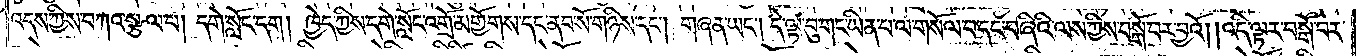འདས་ཀྱིས་བཀའ་སྩལ་པ། དགེ་སློང་དག། ཁྱེད་ཀྱིས་དགེ་སློང་འགྲོ་མགྱོགས་དང་ནབ་སོ་གཉིས་དང༌། གཞན་ཡང༌། དེ་ལྟ་བུ་གང་ཡིན་པ་ལ་གསོལ་བ་དང་བཞིའི་ལས་ཀྱིས་བསྒོ་བར་བྱའོ། །འདི་ལྟར་བསྒོ་བར་
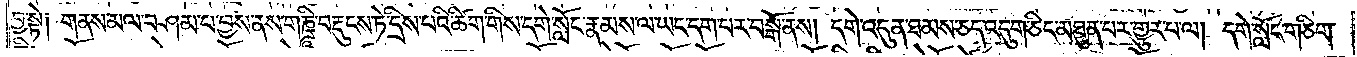བྱ་སྟེ། གནས་མལ་བཤམ་པ་བྱས་ནས་གཎྜཱི་བརྡུངས་ཏེ་དྲིས་པའི་ཚིག་གིས་དགེ་སློང་རྣམས་ལ་ཡང་དག་པར་བསྒོ་ནས། དགེ་འདུན་ཐམས་ཅད་འདུག་ཅིང་མཐུན་པར་གྱུར་པ་ལ། དགེ་སློང་གཅིག་
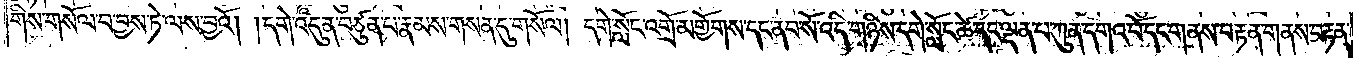གིས་གསོལ་བ་བྱས་ཏེ་ལས་བྱའོ། །དགེ་འདུན་བཙུན་པ་རྣམས་གསན་དུ་གསོལ། དགེ་སློང་འགྲོ་མགྱོགས་དང་ནབ་སོ་འདི་གཉིས་དགེ་སློང་ཚེ་དང་ལྡན་པ་ཀུན་དགའ་བོ་དང་གནས་བརྟན་གནས་བརྟན་
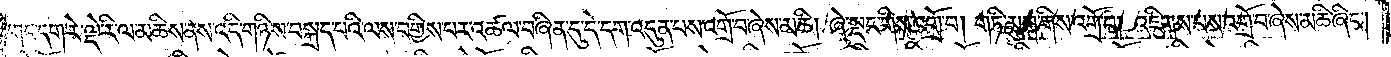གང་དག་རེ་ལྡེ་རི་ལ་མཆིས་ནས་འདི་གཉིས་བསྐྲད་པའི་ལས་བགྱིས་པར་འཚལ་བཞིན་དུ་དེ་དག་འདུན་པས་འགྲོ་བ་ཞེས་མཆི། ཞེ་སྡང་གིས་འགྲོ་བ། གཏི་མུག་གིས་འགྲོ་བ། འཇིགས་པས་འགྲོ་བ་ཞེས་མཆི་ཞིང༌།
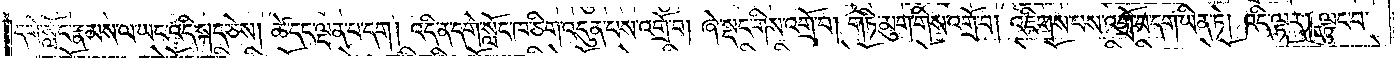དགེ་སློང་རྣམས་ལ་ཡང་འདི་སྐད་ཅེས། ཚེ་དང་ལྡན་པ་དག། འདི་ན་དགེ་སློང་ཁ་ཅིག་འདུན་པས་འགྲོ་བ། ཞེ་སྡང་གིས་འགྲོ་བ། གཏི་མུག་གིས་འགྲོ་བ། འཇིགས་པས་འགྲོ་བ་དག་ཡིན་ཏེ། འདི་ལྟར། ལྟུང་བ་
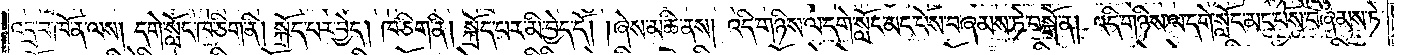འདྲ་བ་ཁོ་ན་ལས། དགེ་སློང་ཁ་ཅིག་ནི། སྐྲོད་པར་བྱེད། ཁ་ཅིག་ནི། སྐྲོད་པར་མི་བྱེད་དོ། །ཞེས་མཆི་ནས། འདི་གཉིས་ལ་དགེ་སློང་མང་པོས་བཞམས་ཏེ་བསྒོ་ན། འདི་གཉིས་ལ་དགེ་སློང་མང་པོས་བཞམས་ཏེ་
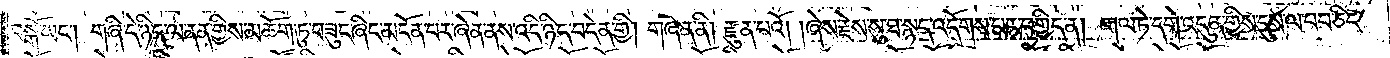བསྒོ་ཡང༌། གཞི་དེ་ཉིད་ལ་ནན་གྱིས་མཆོག་ཏུ་བཟུང་ཞིང་མངོན་པར་ཞེན་ནས་འདི་ཉིད་བདེན་གྱི། གཞན་ནི། རྫུན་པའོ། །ཞེས་རྗེས་སུ་ཐ་སྙད་འདོགས་པར་བགྱིད་ན། གལ་ཏེ་དགེ་འདུན་གྱིས་དུས་ལ་བབ་ཅིང་
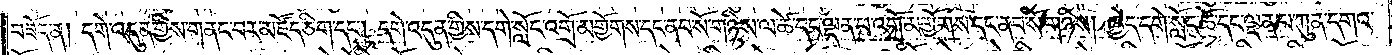བཟོད་ན། དགེ་འདུན་གྱིས་གནང་བར་མཛོད་ཅིག་དང༌། དགེ་འདུན་གྱིས་དགེ་སློང་འགྲོ་མགྱོགས་དང་ནབ་སོ་གཉིས་ལ་ཚེ་དང་ལྡན་པ་འགྲོ་མགྱོགས་དང་ནབ་སོ་གཉིས། ཁྱེད་དགེ་སློང་ཚེ་དང་ལྡན་པ་ཀུན་དགའ་
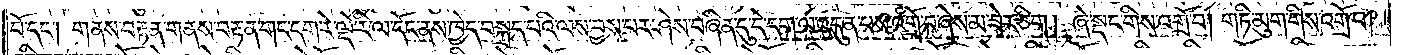བོ་དང༌། གནས་བརྟན་གནས་བརྟན་གང་དག་རེ་ལྡེ་རི་ལ་དོང་ནས་ཁྱེད་བསྐྲད་པའི་ལས་བྱས་པར་ཤེས་བཞིན་དུ་དེ་དག་ལ་འདུན་པས་འགྲོ་བ་ཞེས་མ་ཟེར་ཅིག །ཞེ་སྡང་གིས་འགྲོ་བ། གཏི་མུག་གིས་འགྲོ་བ།
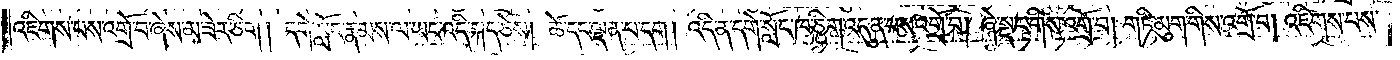འཇིགས་པས་འགྲོ་བ་ཞེས་མ་ཟེར་ཅིག ། དགེ་སློང་རྣམས་ལ་ཡང་འདི་སྐད་ཅེས། ཚེ་དང་ལྡན་པ་དག། འདི་ན་དགེ་སློང་ཁ་ཅིག་འདུན་པས་འགྲོ་བ། ཞེ་སྡང་གིས་འགྲོ་བ། གཏི་མུག་གིས་འགྲོ་བ། འཇིགས་པས་
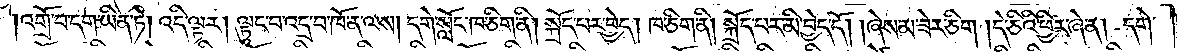འགྲོ་བ་དག་ཡིན་ཏེ། འདི་ལྟར། ལྟུང་བ་འདྲ་བ་ཁོ་ན་ལས། དགེ་སློང་ཁ་ཅིག་ནི། སྐྲོད་པར་བྱེད། ཁ་ཅིག་ནི། སྐྲོད་པར་མི་བྱེད་དོ། །ཞེས་མ་ཟེར་ཅིག །དེ་ཅིའི་ཕྱིར་ཞེ་ན། དགེ་
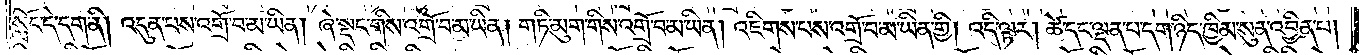སློང་དེ་དག་ནི། འདུན་པས་འགྲོ་བ་མ་ཡིན། ཞེ་སྡང་གིས་འགྲོ་བ་མ་ཡིན། གཏི་མུག་གིས་འགྲོ་བ་མ་ཡིན། འཇིགས་པས་འགྲོ་བ་མ་ཡིན་གྱི། འདི་ལྟར། ཚེ་དང་ལྡན་པ་དག་ཉིད་ཁྱིམ་སུན་འབྱིན་པ།
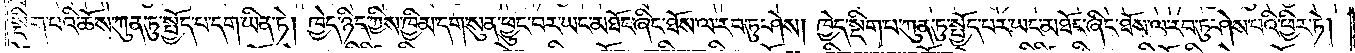སྡིག་པའི་ཆོས་ཀུན་ཏུ་སྤྱོད་པ་དག་ཡིན་ཏེ། ཁྱེད་ཉིད་ཀྱིས་ཁྱིམ་དག་སུན་ཕྱུང་བར་ཡང་མཐོང་ཞིང་ཐོས་ལ་རབ་ཏུ་ཤེས། ཁྱེད་སྡིག་པ་ཀུན་ཏུ་སྤྱོད་པར་ཡང་མཐོང་ཞིང་ཐོས་ལ་རབ་ཏུ་ཤེས་པའི་ཕྱིར་ཏེ།
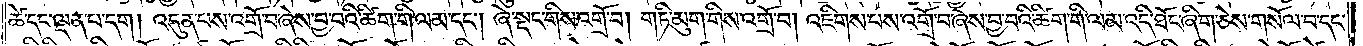ཚེ་དང་ལྡན་པ་དག། འདུན་པས་འགྲོ་བ་ཞེས་བྱ་བའི་ཚིག་གི་ལམ་དང༌། ཞེ་སྡང་གིས་འགྲོ་བ། གཏི་མུག་གིས་འགྲོ་བ། འཇིགས་པས་འགྲོ་བ་ཞེས་བྱ་བའི་ཚིག་གི་ལམ་འདི་ཐོང་ཞིག་ཅེས་གསོལ་བ་དང་
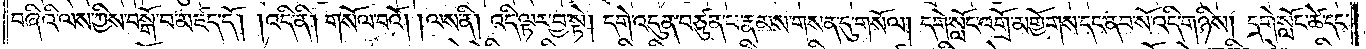བཞིའི་ལས་ཀྱིས་བསྒོ་བ་མཛད་དོ། །འདི་ནི། གསོལ་བའོ། །ལས་ནི། འདི་ལྟར་བྱ་སྟེ། དགེ་འདུན་བཙུན་པ་རྣམས་གསན་དུ་གསོལ། དགེ་སློང་འགྲོ་མགྱོགས་དང་ནབ་སོ་འདི་གཉིས། དགེ་སློང་ཚེ་དང་
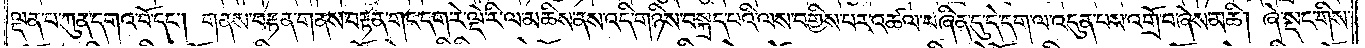ལྡན་པ་ཀུན་དགའ་བོ་དང༌། གནས་བརྟན་གནས་བརྟན་གང་དག་རེ་ལྡེ་རི་ལ་མཆིས་ནས་འདི་གཉིས་བསྐྲད་པའི་ལས་བགྱིས་པར་འཚལ་བཞིན་དུ་དེ་དག་ལ་འདུན་པས་འགྲོ་བ་ཞེས་མཆི། ཞེ་སྡང་གིས་
